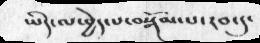ཡིད་ལ་བྱེད་པ་བསྒོམ་པ་རབ་དུ་
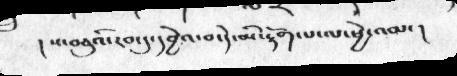། ས་བཅུའི་རབ་དུ་དབྱེའ་བ་དེ་མི་རྟོག་པ་ལ་ཕྱེ་འམ་།
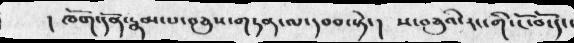། ཁོག་དོན་རྣམ་པ་བཅུས་གཏན་ལ་དབབ་སྟེ་།  ས་བཅུའི་རང་གི་ངོ་བོ་དོ་
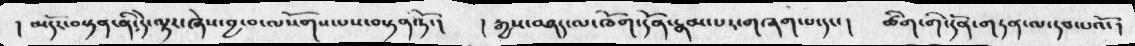། མདོར་བསྟན་ནི་དེ་ལྟར་ཞེས་བྱ་བ་ལསོགས་པས་བསྟན་ཏོ་།  ། རྒྱས་བཤད་ལ་ཁོག་དོན་རྣམ་པར་གཞག་པ་དང་།  ཚིག་གི་དོན་གཏན་ལ་དབ་པའོ་།
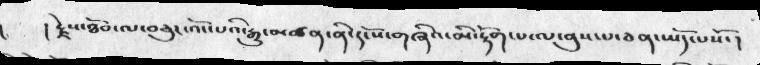།    ། རྗེས་ཐོབ་བཅུར་འོང་པའི་རྒྱུ་མཚན་ནི་དངོས་གཞིའ་མ་རྟོག་པ་ལ་ནུས་པ་ཅན་ཡོད་པསོ་།
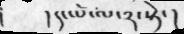།དང་པོ་ལ་༢་སྟེ་།
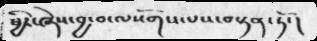ཕྱིར་ཞེས་བྱ་བ་ལསོགས་པས་བསྟན་ཏོ་།
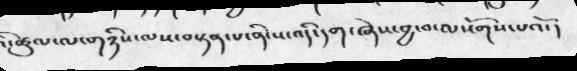ཚུལ་ལ་གཉིས་ལས་བསྟན་པ་ནི་ས་འདི་དག་ཞེས་བྱ་བ་ལསོགས་པའོ་།
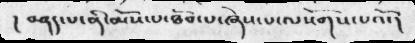།  བཤད་པ་ནི་མོས་པ་ཐོབ་པ་ཞེས་པ་ལསོགས་པའོ་།
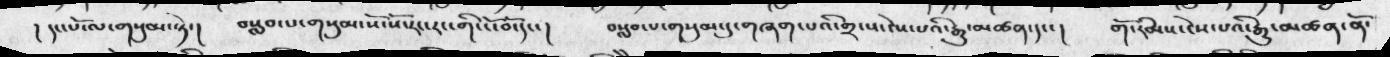། དང་པོ་ལ་གསུམ་སྟེ་།  བསླབ་པ་གསུམ་སོ་སོ་རང་རང་གི་ངོ་བོ་དང་།   བསླབ་པ་གསུམ་དུ་བཞག་པའི་གྲངས་ངེས་པའི་རྒྱུ་མཚན་དང་།   གོ་རིམས་ངེས་པའི་རྒྱུ་མཚན་ནོ་
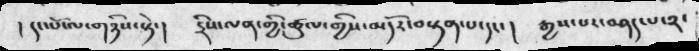། དང་པོ་ལ་གཉིས་སྟེ་།   དྲིས་ལན་གྱི་ཚུལ་གྱིས་མདོར་བསྟན་པ་དང་།  རྒྱས་པར་བཤད་པ་༢་
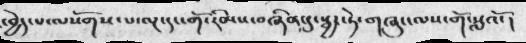་བྱེད་པ་ལསོགས་པ་ལྔ་དང་གོ་རིམས་བཞིན་དུ་སྦྱར་ཏེ་གཞུང་ལས་གོ་སླའོ་།
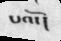པའོ་།
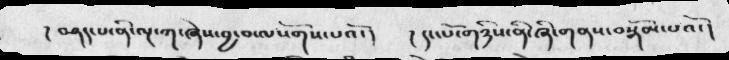། བཤད་པ་ནི་ལྔ་ཀ་ཞེས་བྱ་བ་ལསོགས་པའོ་།    ། དང་པོ་གཉིས་ནི་ཞི་གནས་བསྒོམ་པའོ་།
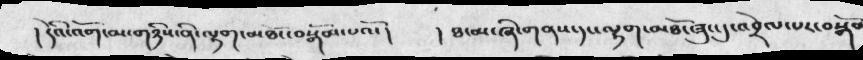། དེའི་འོག་མ་གཉིས་ནི་ལྷག་མཐོང་བསྒོམ་པའོ་།     ། ཐ་མ་ཞི་གནས་དང་ལྷག་མཐོང་ཟུང་དུ་འབྲེལ་པར་བསྒོམ
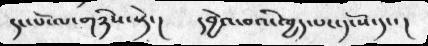དང་པོ་ལ་གཉིས་སྟེ་།  དབྱེའ་བའི་ཁྱད་པར་དངོས་དང་།
